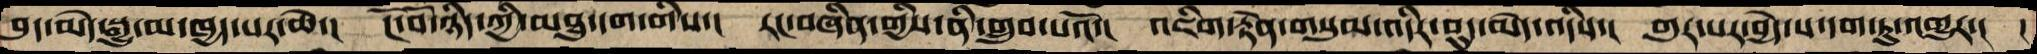བུད་མེད་སྒྱུ་མ་ཁྱད་པར་ཆེ་།   ངོ་བོ་ཉིད་ཀྱི་མཐུ་དག་གིས་།  རང་བཞིན་གྱིས་ནི་གྲུབ་པའོ་།  འཇིག་རྟེན་གསུམ་འདིར་བུད་མེད་འདིས་།  གུར་པར་བྱེད་པ་དག་ཏུ་འགྱུར་།  །
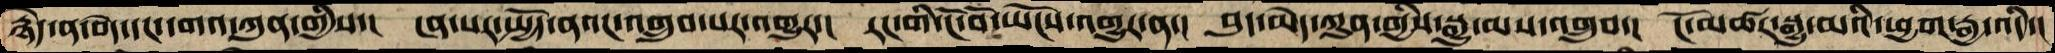རྙེད་ན་བདེ་དང་དགའ་ཀུན་གྱིས་།  ངན་པར་སྤྱོད་ནའང་འགྲུབ་པར་འགྱུར་།  རང་གི་ངོ་བོ་ཡོངས་འགྱུར་ན་།  བུད་མེད་ཀུན་གྱིས་སྒྱུ་མས་འགྲུབ་།  ངོ་མཚར་སྒྱུ་མའི་ཕྱག་རྒྱ་འདི་།
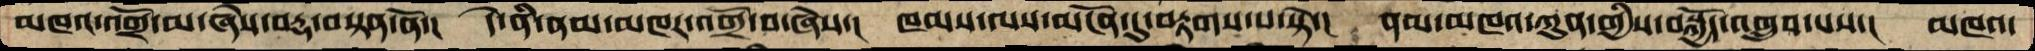མཁའ་འགྲོ་མ་ཞེས་བརྡ་བསྟན་ནོ་།  དེ་ནི་ནམ་མཁར་འགྲོ་བ་ཞེས་།  ཁམས་ལས་མངོན་དུ་བརྟགས་པ་སྟེ་།   ནམ་མཁའ་ཀུན་གྱིས་བསྐྱོད་འགྲུབ་པས་།  མཁའ་
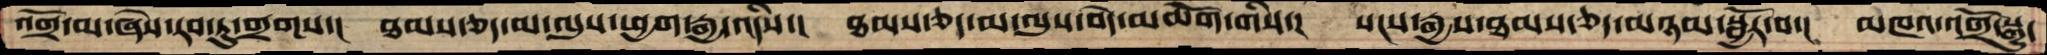འགྲོ་མ་ཞེས་རབ་ཏུ་གྲགས་།  ཐམས་ཅད་མ་ལུས་ཕྱག་རྒྱ་འདིས་།  ཐམས་ཅད་མ་ལུས་བདེ་མཆོག་གིས་།  སངས་རྒྱས་ཐམས་ཅད་མཉམ་སྦྱོར་བ་།  མཁའ་འགྲོ་སྒྱུ་
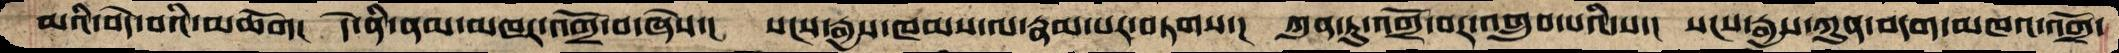མའི་བདེ་བའི་མཆོག།  དེ་ནི་ནམ་མཁར་འགྲོ་བ་ཞེས་།  སངས་རྒྱས་ཁམས་ལ་རྣམ་པར་བཏགས་།  ཀུན་ཏུ་འགྲོ་བར་འགྲུབ་པའི་ས་།  སངས་རྒྱས་ཀུན་བདག་མཁའ་འགྲོ་
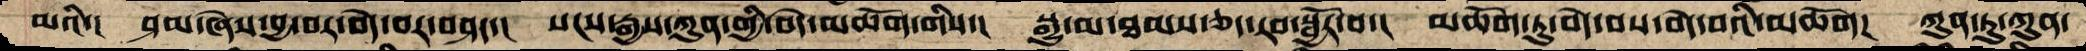མའི་།  ཤམ་ཞེས་བྱ་བར་བདེ་བར་བཤད་།  སངས་རྒྱས་ཀུན་གྱི་བདེ་མཆོག་གིས་།   སྒྱུ་མ་ཐམས་ཅད་རབ་སྦྱོར་བ་།  མཆོག་ཏུ་བདེ་བས་བདེ་བའི་མཆོག།  ཀུན་ཏུ་ཀུན་
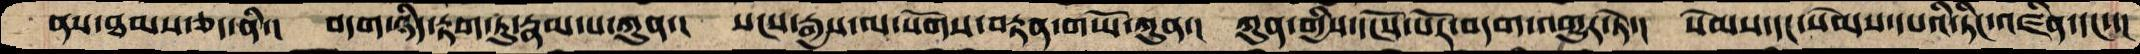ནས་ཐམས་ཅད་ནི་།  བདག་ཉིད་རྟག་ཏུ་རྣམ་པ་ཀུན་།  སངས་རྒྱས་ལ་སོགས་བརྟན་གཡོ་ཀུན་།   ཀུན་གྱིས་དངོས་པོར་བདག་འགྱུར་ཏེ་།  སེམས་དང་སེམས་དཔའི་ཏིང་འཛིན་དང་་།
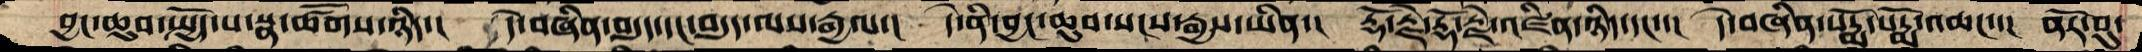བྱང་ཆུབ་སྤྱོད་པ་སྣ་ཚོགས་ཉིད་།  དེ་བཞིན་བདུད་དང་བདུད་ལས་རྒྱལ་།  དེ་ནི་བྱང་ཆུབ་སངས་རྒྱས་ཡིན་།  རྡོ་རྗེ་རྡོ་རྗེ་འཛིན་ཉིད་དང་་།  དེ་བཞིན་པདྨོ་པདྨོ་འཆང་་།  ནོར་བུ་
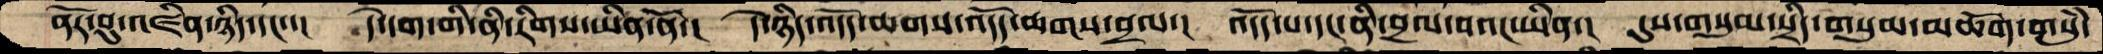ནོར་བུ་འཛིན་ཉིད་དང་་།  དེ་དག་གི་ནི་རིགས་ཡིན་ནོ་།  དེ་ཉིད་འདོད་ཆགས་འདོད་ཆགས་བྲལ་།  འདོད་པ་དང་ནི་བྲལ་བའང་ཡིན་།  དུས་གསུམ་སྲིད་གསུམ་མཆོག་གསུཾ་
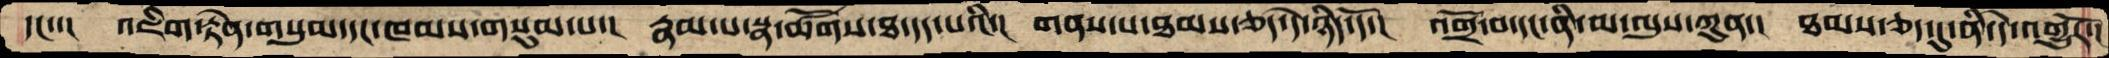དང་་།  འཇིག་རྟེན་གསུམ་དང་ཁམས་གསུམ་པ་།  རྣམ་པ་སྣ་ཚོགས་ཐ་དད་པའི་།  གནས་པ་ཐམས་ཅད་དེ་ཉིད་དོ་།  འགྲོ་བ་དང་ནི་མ་ལུས་ཀུན་།  ཐམས་ཅད་དུ་ནི་དེ་འགྱུརོ་།
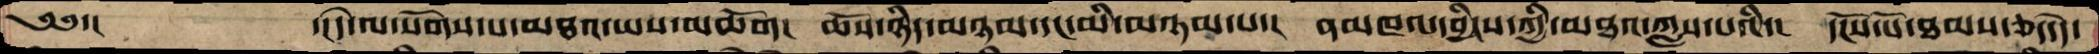༄༅་།     ་།དེ་ལ་སོགས་པ་མཐའ་ཡས་མཆོག།  ཆོས་ཉིད་མཉམ་དང་མི་མཉམ་པ་།  ནམཁའ་དབྱིངས་ཀྱི་མཐའ་ཀླས་པའི་།  དངོས་པོ་ཐམས་ཅད་དེ་
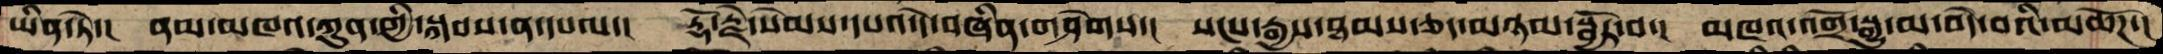ཡིན་ཏེ་།  ནམ་མཁའ་ཀུན་གྱི་སྐབས་ན་དཔལ་།  རྡོ་རྗེ་སེམས་དཔའ་དེ་བཞིན་གཤེགས་།  སངས་རྒྱས་ཐམས་ཅད་མཉམ་སྦྱོར་བ་།  མཁའ་འགྲོ་སྒྱུ་མ་བདེ་བའི་མཆོཌ་།
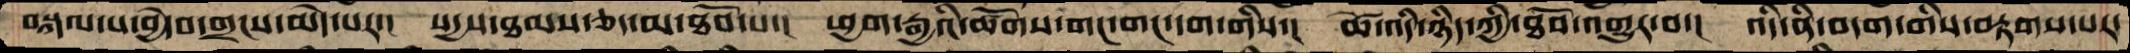བསྐལ་པ་བྱེ་བ་གྲངས་མེད་པར་།  སདྱས་ཐམས་ཅད་མ་ཐོབ་པ་།  ཕྱག་རྒྱའི་ཚོགས་གང་གང་དག་གིས་།  ཚེ་འདི་ཉིད་ཀྱི་ཐོབ་འགྱུར་བ་།  འདི་ནི་བདག་གིས་བརྟགས་པར་
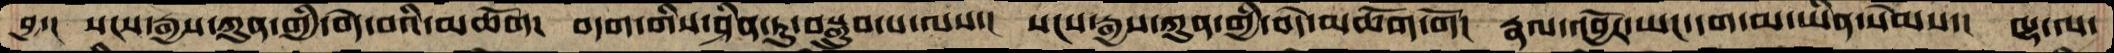བྱ་།  སངས་རྒྱས་ཀུན་གྱི་བདེ་བའི་མཆོག།  བདག་གིས་ཤིན་ཏུ་བསྒྲུབ་པ་ལས་།  སངས་རྒྱས་ཀུན་གྱི་བདེ་མཆོག་གོ།  རྣལ་འབྱོར་ཡང་དག་མ་ཡིན་སེམས་།  ལྷ་ལ་
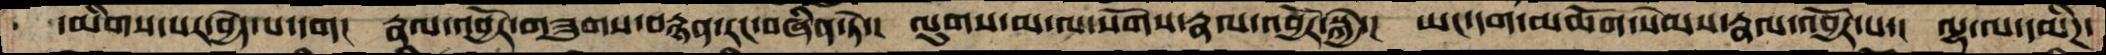དམིགས་པར་བྱེད་པ་དག།  རྣལ་འབྱོར་གཟུགས་བརྙན་རང་བཞིན་ཏེ་།  ལུགས་མ་ལ་སོགས་རྣལ་འབྱོར་སྐྱེ་།  ཡང་དག་མཆོག་སེམས་རྣལ་འབྱོར་པ་།  ལྷ་ལ་དམིཌ་
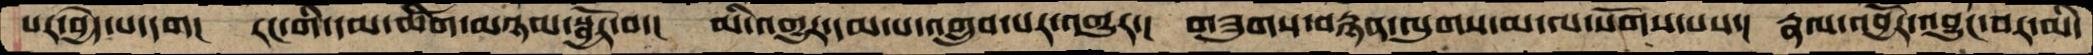པར་བྱེད་པ་དག།  རང་གི་དམ་ཚིག་མཉམ་སྦྱོར་བ་།  མི་འགྱུར་དམ་པ་འགྲུབ་པར་འགྱུར་།  གཟུགས་བརྙན་ལུགས་མ་ལ་སོགས་པས་།  རྣལ་འབྱོར་འབྱུང་བར་མི་
